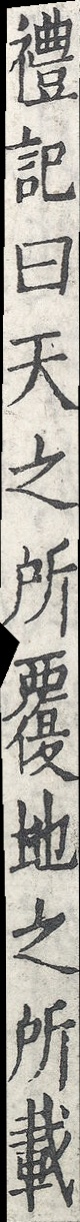禮記曰天之所覆地之所載
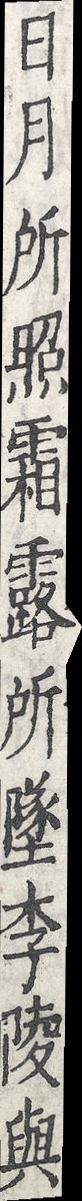日月所照霜露所墜李陵與
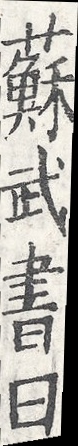蘇武書曰
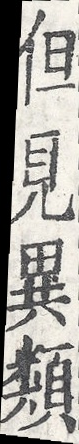但見異類
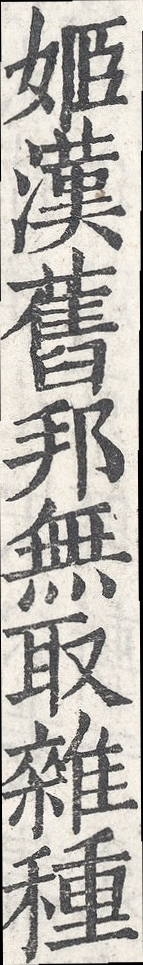姬漢舊邦無取雜種
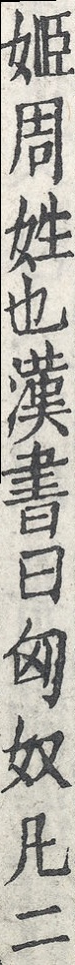姬周姓也漢書曰匈奴凡二
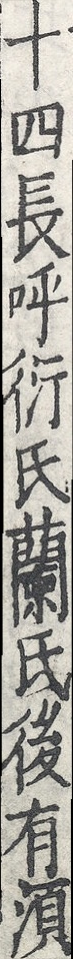十四長呼衍氏蘭氏後有須
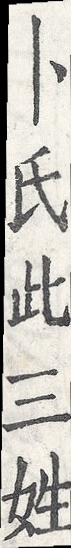卜氏此三姓
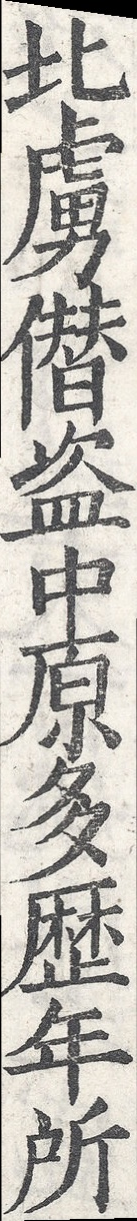北虜僭盜中原多歷年所
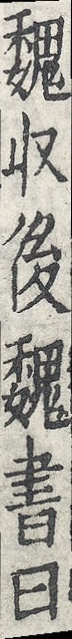魏收後魏書曰
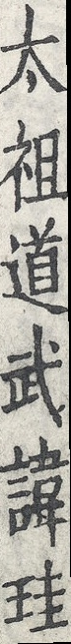太祖道武諱珪
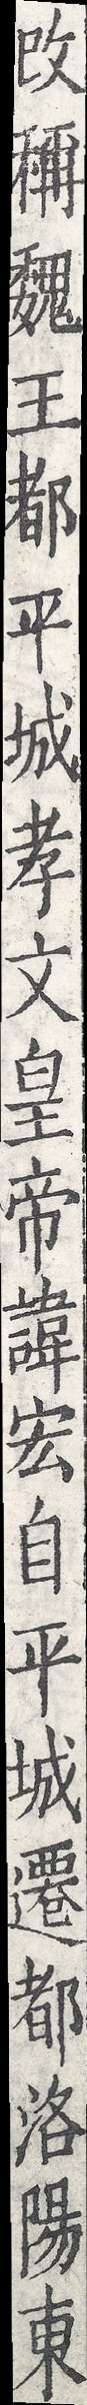改稱魏王都平城孝文皇帝諱宏自平城遷都洛陽東
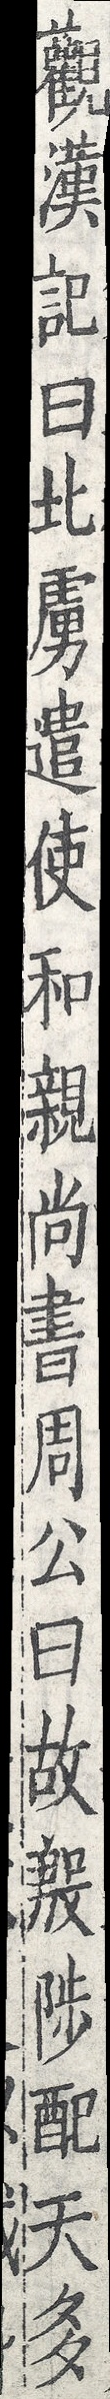觀漢記曰北虜遣使和親尚書周公曰故殷陟配天多
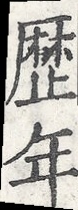歷年
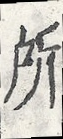所
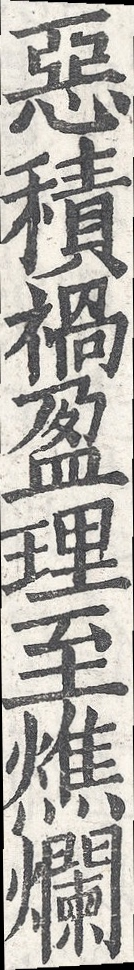惡積禍盈理至燋爛
